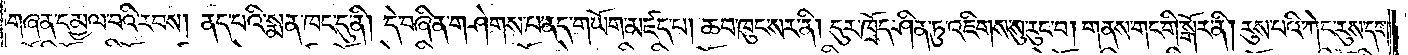གཞན་དམྱལ་བའི་རབས། ནད་པའི་སྨན་ཁང་དུ་ནི། དེ་བཞིན་གཤེགས་པ་ནད་གཡོག་མཛད་པ། ཆབ་ཁུང་སར་ནི། དུར་ཁྲོད་ཤིན་ཏུ་འཇིགས་སུ་རུང་བ། གནས་གང་གི་སྒོར་ནི། རུས་པའི་ཀེང་རུས་དང་
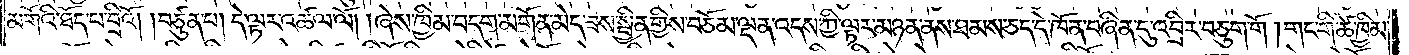མགོའི་ཐོད་པ་བྲིའོ། །བཙུན་པ། དེ་ལྟར་འཚལ་ལོ། །ཞེས་ཁྱིམ་བདག་མགོན་མེད་ཟས་སྦྱིན་གྱིས་བཅོམ་ལྡན་འདས་ཀྱི་ལྟར་མཉན་ནས་ཐམས་ཅད་དེ་ཁོ་ན་བཞིན་དུ་འབྲིར་བཅུག་གོ །གང་གི་ཚེ་ཁྱིམ་
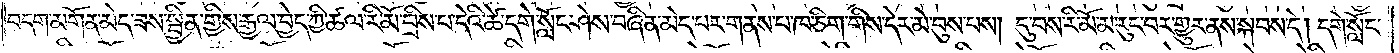བདག་མགོན་མེད་ཟས་སྦྱིན་གྱིས་རྒྱལ་བྱེད་ཀྱི་ཚལ་རི་མོ་བྲིས་པ་དེའི་ཚེ་དགེ་སློང་ཤེས་བཞིན་མེད་པར་གནས་པ་ཁ་ཅིག་གིས་དེར་མེ་བུས་པས། དུ་བས་རི་མོ་མ་རུང་བར་གྱུར་ནས་སྐབས་དེ། དགེ་སློང་
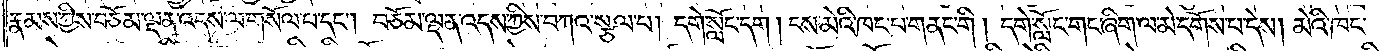རྣམས་ཀྱིས་བཅོམ་ལྡན་འདས་ལ་གསོལ་པ་དང༌། བཅོམ་ལྡན་འདས་ཀྱིས་བཀའ་སྩལ་པ། དགེ་སློང་དག། ངས་མེའི་ཁང་པ་གནང་གི། དགེ་སློང་གང་ཞིག་ལ་མེ་དགོས་པ་དེས། མེའི་ཁང་
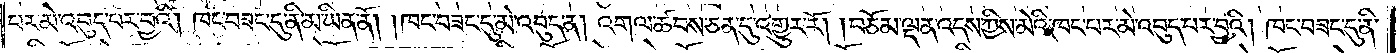པར་མེ་འབུད་པར་བྱའི། ཁང་བཟང་དུ་ནི་མ་ཡིན་ནོ། །ཁང་བཟང་དུ་མེ་འབུད་ན། འགལ་ཚབས་ཅན་དུ་འགྱུར་རོ། །བཅོམ་ལྡན་འདས་ཀྱིས་མེའི་ཁང་པར་མེ་འབུད་པར་བྱའི། ཁང་བཟང་དུ་ནི་
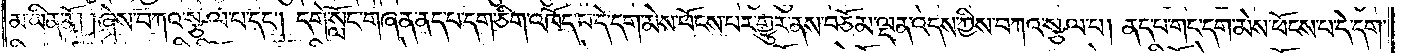མ་ཡིན་ནོ། །ཞེས་བཀའ་སྩལ་པ་དང༌། དགེ་སློང་གཞན་ནད་པ་དག་ཅིག་འཁོད་པ་དེ་དག་མེས་ཕོངས་པར་གྱུར་ནས་བཅོམ་ལྡན་འདས་ཀྱིས་བཀའ་སྩལ་པ། ནད་པ་གང་དག་མེས་ཕོང་པ་དེ་དག་
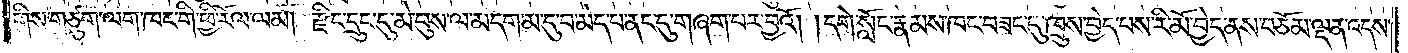གིས་གཙུག་ལག་ཁང་གི་ཕྱི་རོལ་ལམ། རྫིང་དྲུང་དུ་མེ་བུས་ལ་མདག་མ་དུ་བ་མེད་པ་ནང་དུ་གཞག་པར་བྱའོ། །དགེ་སློང་རྣམས་ཁང་བཟང་དུ་ཁྲུས་བྱེད་པས་རི་མོ་བྱེད་ནས་བཅོམ་ལྡན་འདས་
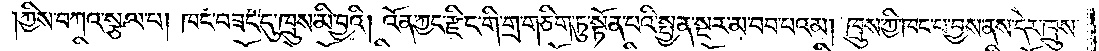ཀྱིས་བཀའ་སྩལ་པ། ཁང་བཟང་དུ་ཁྲུས་མི་བྱའི། འོན་ཀྱང་རྫིང་གི་གྲ་གཅིག་ཏུ་སྟོན་པའི་སྤྱན་སྔར་མ་བབ་པའམ། ཁྲུས་ཀྱི་ཁང་པ་བྱས་ནས་དེར་ཁྲུས་
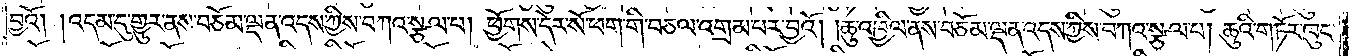བྱའོ། །འདམ་དུ་གྱུར་ནས་བཅོམ་ལྡན་འདས་ཀྱིས་བཀའ་སྩལ་པ། ཕྱོགས་དེར་སོ་ཕག་གི་བཅལ་འགྲམ་པར་བྱའོ། །ཆུ་འཁྱིལ་ནས་བཅོམ་ལྡན་འདས་ཀྱིས་བཀའ་སྩལ་པ། ཆུའི་གཏོར་ཁུང་
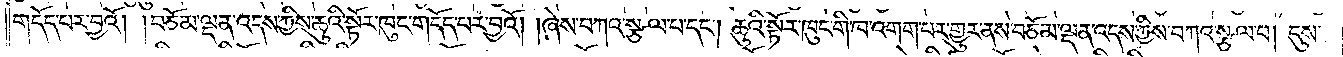གདོད་པར་བྱའོ། །བཅོམ་ལྡན་འདས་ཀྱིས་ཆུའི་སྟོར་ཁུང་གདོད་པར་བྱའོ། །ཞེས་བཀའ་སྩལ་པ་དང༌། ཆུའི་སྟོར་ཁུང་གི་ཁ་འགག་པར་གྱུར་ནས་བཅོམ་ལྡན་འདས་ཀྱིས་བཀའ་སྩལ་པ། དུས་
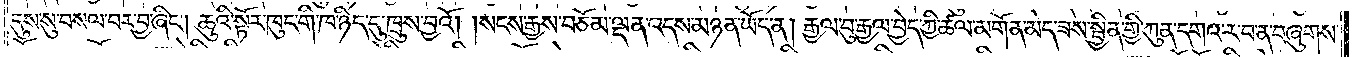དུས་སུ་བསལ་བར་བྱ་ཞིང༌། ཆུའི་སྟོར་ཁུང་གི་ཁ་ཉིད་དུ་ཁྲུས་བྱའོ། །སངས་རྒྱས་བཅོམ་ལྡན་འདས་མཉན་ཡོད་ན། རྒྱལ་བུ་རྒྱལ་བྱེད་ཀྱི་ཚལ་མགོན་མེད་ཟས་སྦྱིན་གྱི་ཀུན་དགའ་ར་བ་ན་བཞུགས་
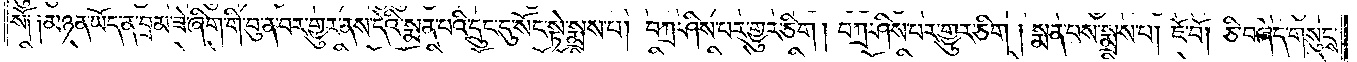སོ༑ ༑མཉན་ཡོད་ན་བྲམ་ཟེ་ཞིག་གི་བུ་ན་བར་གྱུར་ནས་དེའི་སྨན་པའི་དྲུང་དུ་སོང་སྟེ་སྨྲས་པ། བཀྲ་ཤིས་པར་གྱུར་ཅིག །བཀྲ་ཤིས་པར་གྱུར་ཅིག །སྨན་པས་སྨྲས་པ། ཇོ་བོ། ཅི་བཞེད་གསུངས་
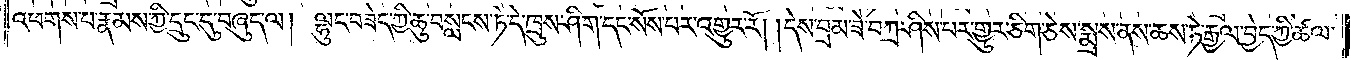འཕགས་པ་རྣམས་ཀྱི་དྲུང་དུ་བཞུད་ལ། ལྷུང་བཟེད་ཀྱི་ཆུ་བསླངས་ཏེ་དེ་ཁྲུས་ཤིག་དང་སོས་པར་འགྱུར་རོ། །དེས་བྲམ་ཟེ་བཀྲ་ཤིས་པར་གྱུར་ཅིག་ཅེས་སྨྲས་ནས་ཆས་ཏེ་རྒྱལ་བྱེད་ཀྱི་ཚལ་
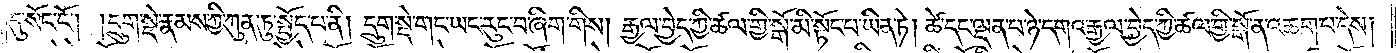དུ་སོང་ངོ༌། །དྲུག་སྡེ་རྣམས་ཀྱི་ཀུན་ཏུ་སྤྱོད་པ་ནི། དྲུག་སྡེ་གང་ཡང་རུང་བ་ཞིག་གིས། རྒྱལ་བྱེད་ཀྱི་ཚལ་གྱི་སྒོ་མི་སྟོང་པ་ཡིན་ཏེ། ཚེ་དང་ལྡན་པ་ཉེ་དགའ་རྒྱལ་བྱེད་ཀྱི་ཚལ་གྱི་སྒོ་ན་འཆག་པ་དེས།
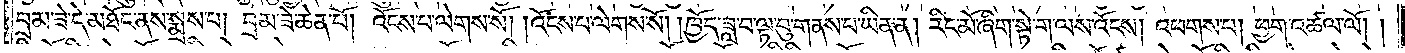བྲམ་ཟེ་དེ་མཐོང་ནས་སྨྲས་པ། བྲམ་ཟེ་ཆེན་པོ། འོངས་པ་ལེགས་སོ། །འོངས་པ་ལེགས་སོ། །ཁྱོད་ཟླ་བ་ལྟ་བུ་གནས་པ་ཡིན་ན། རིང་མོ་ཞིག་སྟེ་ག་ལས་འོངས། འཕགས་པ། ཕྱག་འཚལ་ལོ། །
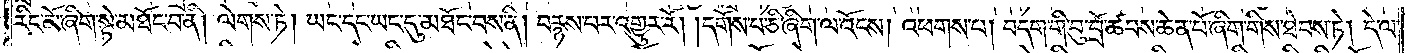རིང་མོ་ཞིག་སྟེ་མཐོང་བ་ནི། ལེགས་ཏེ། ཡང་དང་ཡང་དུ་མཐོང་བས་ནི། བརྙས་པར་འགྱུར་རོ། །དགོས་པ་ཅི་ཞིག་ལ་འོངས། འཕགས་པ། བདག་གི་བུ་བྲོ་ཚབས་ཆེན་པོ་ཞིག་གིས་ཐེབས་ཏེ། དེ་ལ་
